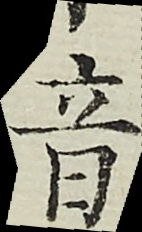音
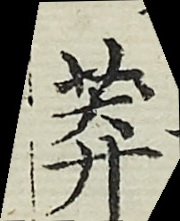莽
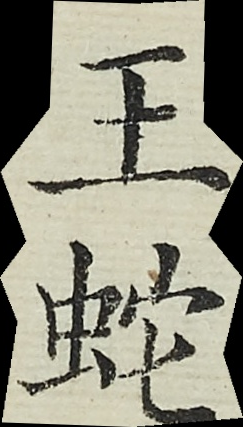王蛇
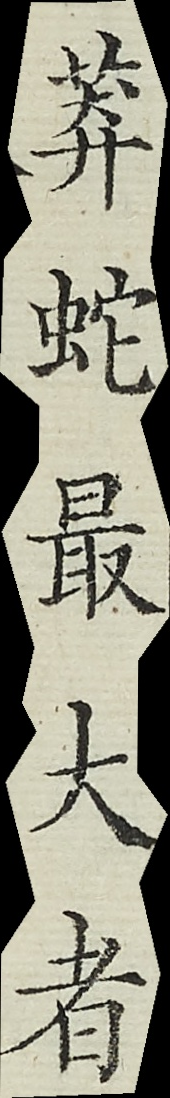莽蛇最大者
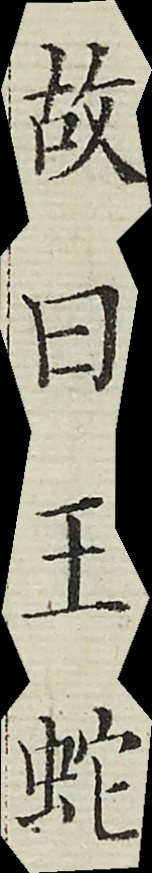故曰王蛇
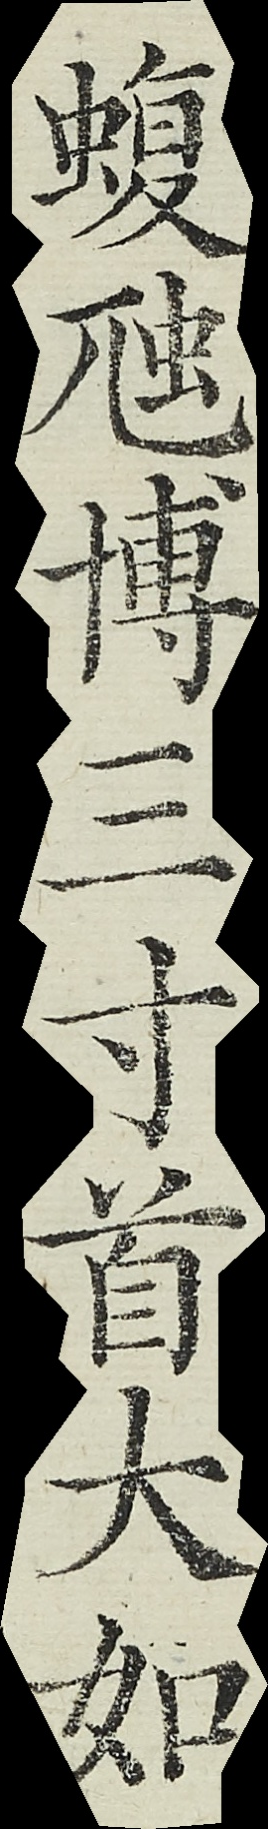蝮虺博三寸首大如
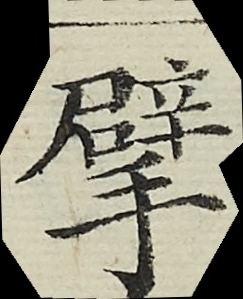擘
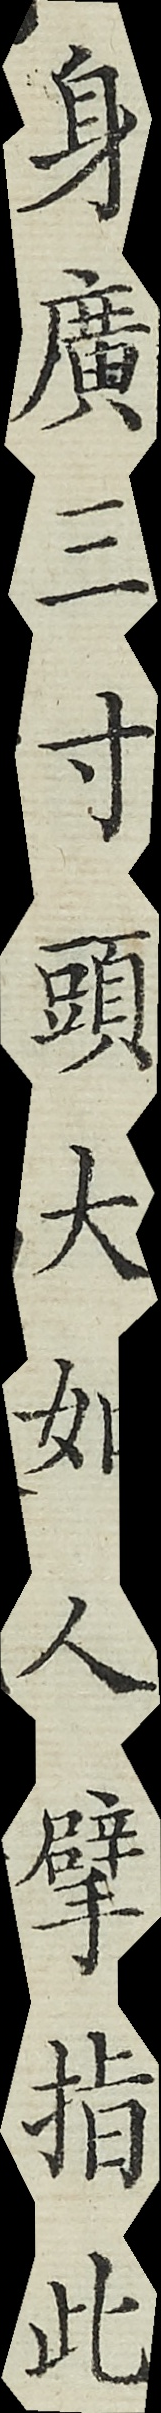身廣三寸頭大如人擘指此
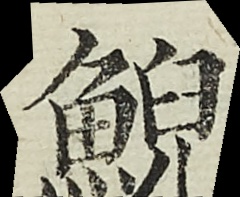鯢
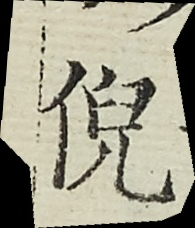倪
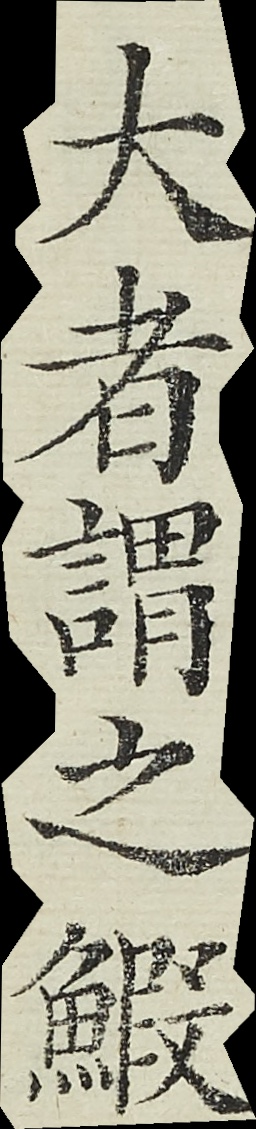大者謂之蝦
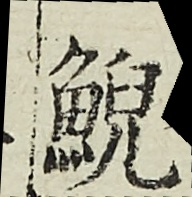鯢
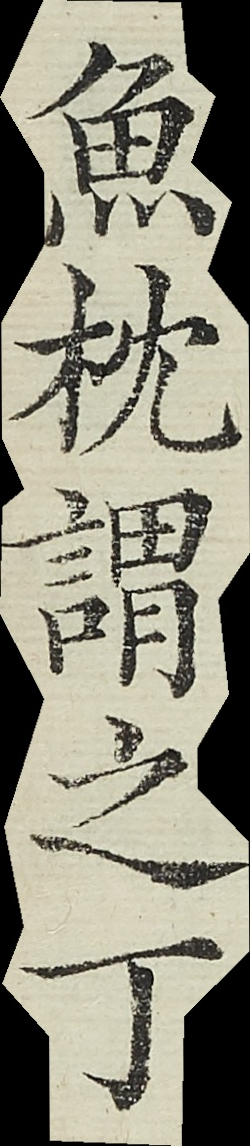魚枕謂之丁
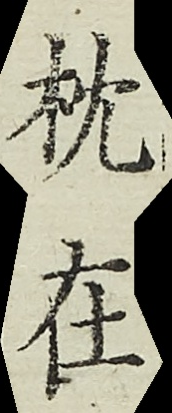枕在
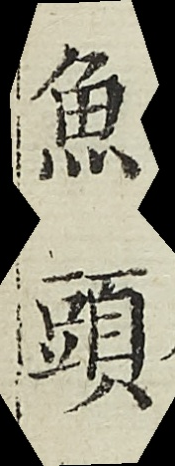魚頭
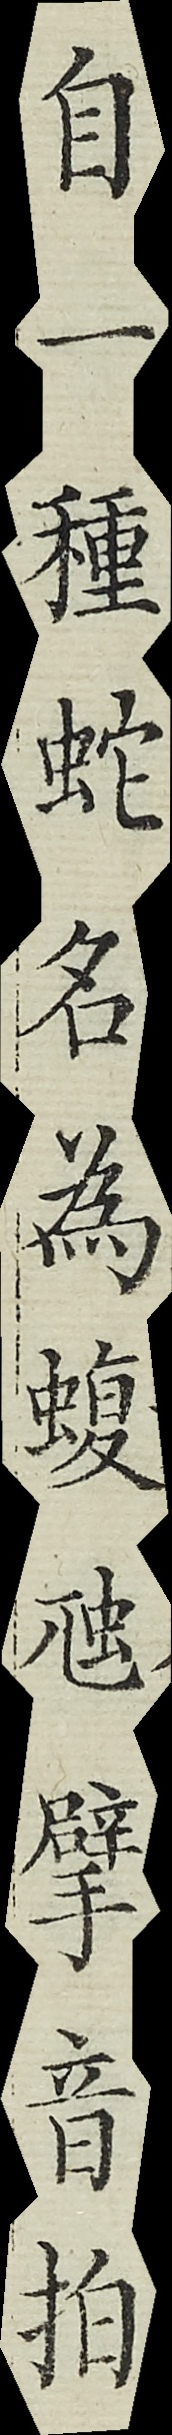自一種蛇名為蝮虺擘音拍
